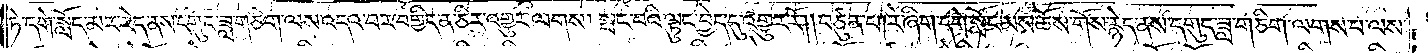ཏེ་དགེ་སློང་མར་རེད་ནས་དགུང་ཟླ་གཅིག་ལས་འདའ་བར་བགྱིད་ན་ཅིར་འགྱུར་ལགས། སྤང་བའི་ལྟུང་བྱེད་དུ་འགྱུར་རོ། །བཙུན་པ། རེ་ཞིག་དགེ་སློང་མས་ཆོས་གོས་རྙེད་ནས་དགུང་ཟླ་གཅིག་ལགས་པ་ལས་
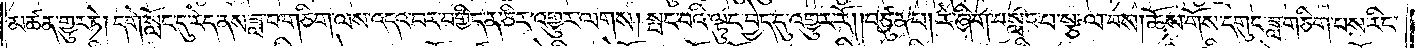མཚན་གྱུར་ཏེ། དགེ་སློང་དུ་རེད་ནས་ཟླ་བ་གཅིག་ལས་འདའ་བར་བགྱིད་ན་ཅིར་འགྱུར་ལགས། སྤང་བའི་ལྟུང་བྱེད་དུ་འགྱུར་རོ། །བཙུན་པ། རེ་ཞིག་བསླབ་པ་སྩལ་བས། ཆོས་གོས་དགུང་ཟླ་གཅིག་པས་རིང་
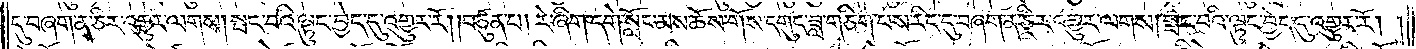དུ་བཞག་ན་ཅིར་འགྱུར་ལགས། སྤང་བའི་ལྟུང་བྱེད་དུ་འགྱུར་རོ། །བཙུན་པ། རེ་ཞིག་དགེ་སློང་མས་ཆོས་གོས་དགུང་ཟླ་གཅིག་པས་རིང་དུ་བཞག་ན་ཅིར་འགྱུར་ལགས། སྤང་བའི་ལྟུང་བྱེད་དུ་འགྱུར་རོ། །
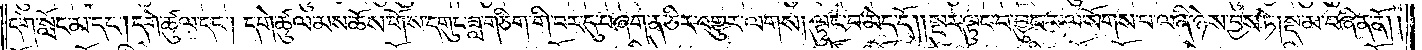དགེ་སློང་མ་དང༌། དགེ་ཚུལ་དང༌། དགེ་ཚུལ་མས་ཆོས་གོས་དགུང་ཟླ་གཅིག་གི་བར་དུ་བཞག་ན་ཅིར་འགྱུར་ལགས། ལྟུང་བ་མེད་དོ། །སྔར་ལྟུང་བ་བྱུང་བ་ལ་སོགས་པ་ལ་ནི་ཉེས་བྱས་ཏེ། སྔ་མ་བཞིན་ནོ།
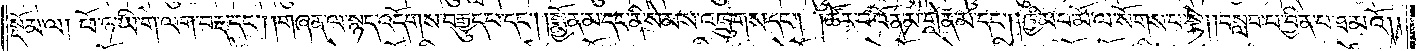།སྡོམ་ལ། ཕོ་ཉ་ཡི་གེ་ལག་བརྡ་དང༌། །གཞན་ལ་སྙད་འདོགས་བརྒྱུད་པ་དང༌། །སྨྱོན་མ་དང་ནི་སེམས་འཁྲུགས་དང༌། ཚོར་བ་འོན་མ་གླེན་མ་དང༌། །ཁྱིམ་པ་མོ་ལ་སོགས་པ་སྟེ། །བསླབ་པ་བྱིན་པ་ཐ་མའོ། །
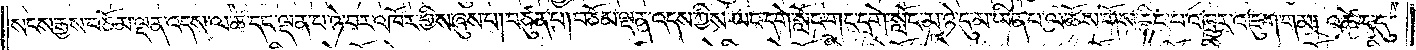སངས་རྒྱས་བཅོམ་ལྡན་འདས་ལ་ཚེ་དང་ལྡན་པ་ཉེ་བར་འཁོར་གྱིས་ཞུས་པ། བཙུན་པ། བཅོམ་ལྡན་འདས་ཀྱིས་ཡང་དགེ་སློང་གང་དགེ་སློང་མ་ཉེ་དུ་མ་ཡིན་པ་ལ་ཆོས་གོས་རྙིང་པ་འཁྲུར་འཇུག་གམ། འཚེད་དུ་
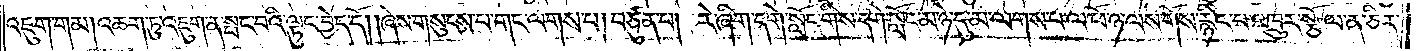འཇུག་གམ། འཆག་ཏུ་འཇུག་ན་སྤང་བའི་ལྟུང་བྱེད་དོ། །ཞེས་གསུངས་པ་གང་ལགས་པ། བཙུན་པ། རེ་ཞིག་དགེ་སློང་གིས་དགེ་སློང་མ་ཉེ་དུ་མ་ལགས་པ་ལ་ཕོ་ཉ་ལས་གོས་རྙིང་པ་འཁྲུར་སྩོལ་ན་ཅིར་
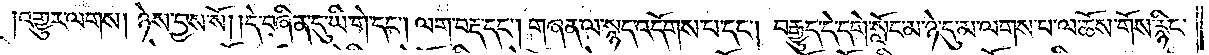།འགྱུར་ལགས། ཉེས་བྱས་སོ། །དེ་བཞིན་དུ་ཡི་གེ་དང༌། ལག་བརྡ་དང༌། གཞན་ལ་སྙད་འདོགས་པ་དང༌། བརྒྱུད་དེ་དགེ་སློང་མ་ཉེ་དུ་མ་ལགས་པ་ལ་ཆོས་གོས་རྙིང་
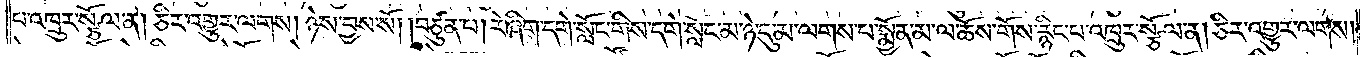པ་འཁྲུར་སྩོལ་ན། ཅིར་འགྱུར་ལགས། ཉེས་བྱས་སོ། །བཙུན་པ། རེ་ཞིག་དགེ་སློང་གིས་དགེ་སློང་མ་ཉེ་དུ་མ་ལགས་པ་སྨྱོན་མ་ལ་ཆོས་གོས་རྙིང་པ་འཁྲུར་སྩོལ་ན། ཅིར་འགྱུར་ལགས།
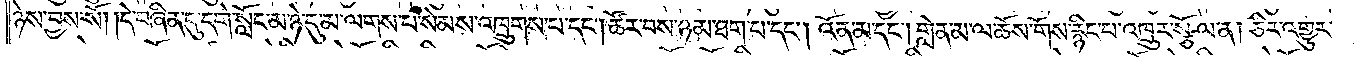ཉེས་བྱས་སོ། །དེ་བཞིན་དུ་དགེ་སློང་མ་ཉེ་དུ་མ་ལགས་པ་སེམས་འཁྲུགས་པ་དང༌། ཚོར་བས་ཉམ་ཐག་པ་དང༌། འོན་མ་དང༌། གླེན་མ་ལ་ཆོས་གོས་རྙིང་པ་འཁྲུར་སྩོལ་ན། ཅིར་འགྱུར་
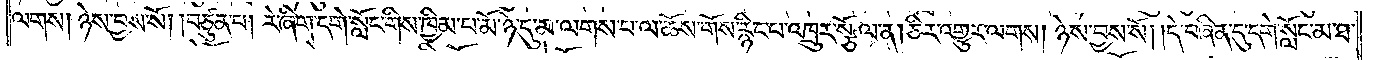ལགས། ཉེས་བྱས་སོ། །བཙུན་པ། རེ་ཞིག་དགེ་སློང་གིས་ཁྱིམ་པ་མོ་ཉེ་དུ་མ་ལགས་པ་ལ་ཆོས་གོས་རྙིང་པ་འཁྲུར་སྩོལ་ན། ཅིར་འགྱུར་ལགས། ཉེས་བྱས་སོ། །དེ་བཞིན་དུ་དགེ་སློང་མ་ཐ་
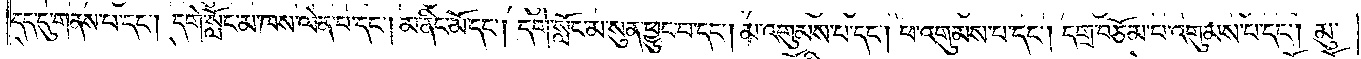དད་དུ་གནས་པ་དང༌། དགེ་སློང་མ་ཁས་ལེན་པ་དང༌། མ་ནིང་མོ་དང༌། དགེ་སློང་མ་སུན་ཕྱུང་བ་དང༌། མ་འགུམས་པ་དང༌། ཕ་འགུམས་པ་དང༌། དགྲ་བཅོམ་པ་འགུམས་པ་དང༌། མུ་
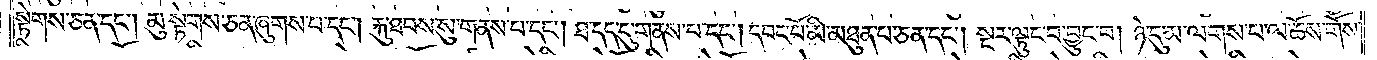སྟེགས་ཅན་དང༌། མུ་སྟེགས་ཅན་ཞུགས་པ་དང༌། རྐུ་ཐབས་སུ་གནས་པ་དང༌། ཐ་དད་དུ་གནས་པ་དང༌། དབང་པོ་མི་མཐུན་པ་ཅན་དང༌། སྔར་ལྟུང་བ་བྱུང་བ། ཉེ་དུ་མ་ལགས་པ་ལ་ཆོས་གོས་
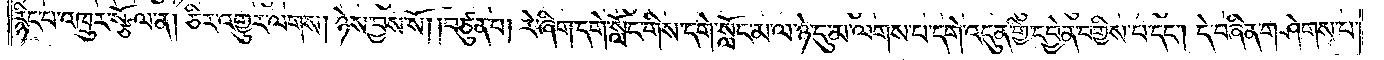རྙིང་པ་འཁྲུར་སྩོལ་ན། ཅིར་འགྱུར་ལགས། ཉེས་བྱས་སོ། །བཙུན་པ། རེ་ཞིག་དགེ་སློང་གིས་དགེ་སློང་མ་ལ་ཉེ་དུ་མ་ལགས་པ་དགེ་འདུན་གྱི་དབྱེན་བགྱིས་པ་དང༌། དེ་བཞིན་གཤེགས་པ་
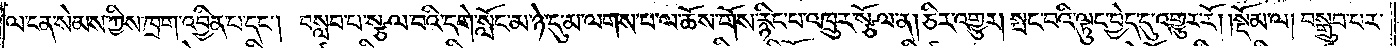ལ་ངན་སེམས་ཀྱིས་ཁྲག་འབྱིན་པ་དང༌། བསླབ་པ་སྩལ་བའི་དགེ་སློང་མ་ཉེ་དུ་མ་ལགས་པ་ལ་ཆོས་གོས་རྙིང་པ་འཁྲུར་སྩོལ་ན། ཅིར་འགྱུར། སྤང་བའི་ལྟུང་བྱེད་དུ་འགྱུར་རོ། །སྡོམ་ལ། བསྒྲུབ་པར་
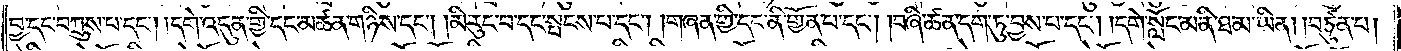བྱ་དང་བཀྲུས་པ་དང༌། །དགེ་འདུན་གྱི་དང་མཚན་གཉིས་དང༌། མི་རུང་བ་དང་སྤངས་པ་དང༌། །གཞན་གྱི་དང་ནི་གྱོན་པ་དང༌། །བཞི་ཚན་དག་ཏུ་བྱས་པ་དང༌། །དགེ་སློང་མ་ནི་ཐ་མ་ཡིན། །བཙུན་པ།
